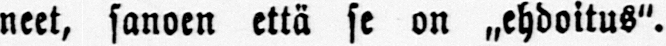neet, sanoen että se on „ehdoitus".
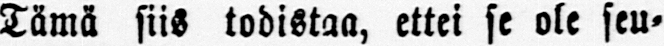Tämä siis todistaa, ettei se ole seu-
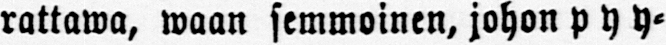rattawa, waan semmoinen, johon pyy-
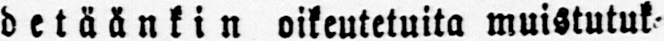detäänkin oikeutetuita muistutuk-
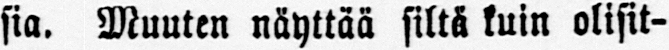sia. Muuten näyttää siltä kuin olisit-
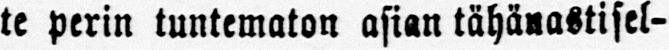te perin tuntematon asian tähänastisel-
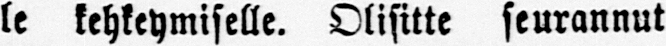le kehkeymiselle. Olisitte seurannut
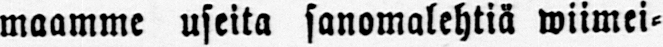maamme useita sanomalehtiä wiimei-
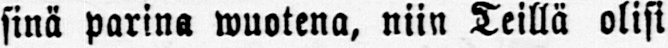sinä parina wuotena, niin Teillä olisi
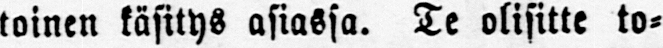toinen käsitys asiassa. Te olisitte to-
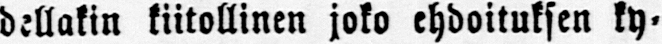dellakin kiitollinen joko ehdoituksen ky-
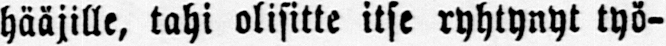hääjille, tahi olisitte itse ryhtynyt työ-
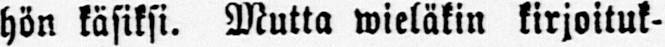hön käsiksi. Mutta wieläkin kirjoituk-
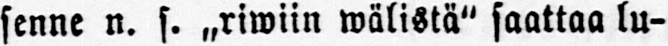senne n. s. ,,riwiin wälistä" saattaa lu-
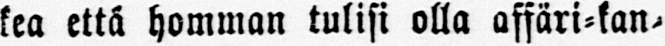kea että homman tulisi olla affäri-kan-
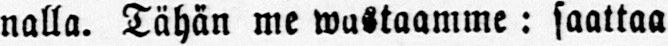nalla. Tähän me wastaamme: saattaa
